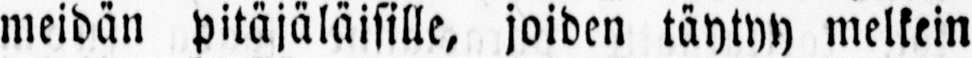meidän pitäjäläisille, joiden täytyy melkein
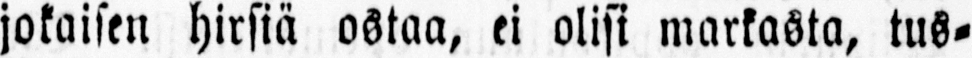jokaisen hirsiä ostaa, ei olisi markasta, tus-
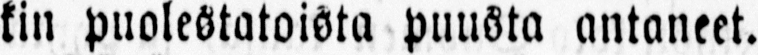kin puolestatoista puusta antaneet.
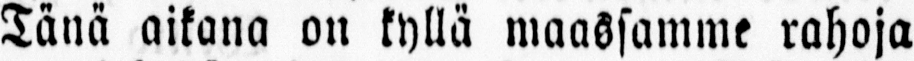Tänä aikana on kyllä maassamme rahoja
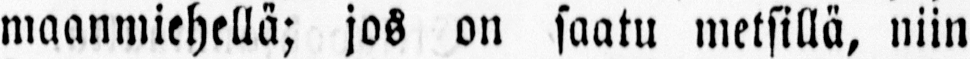maanmiehellä; jos on saatu metsillä, niin
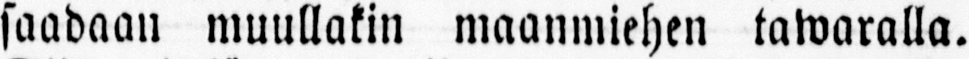saadaan muullakin maanmiehen tawaralla.
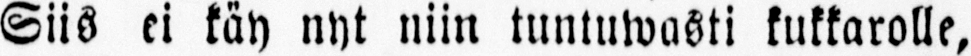Siis ei käy nyt niin tuntuwasti kukkarolle,
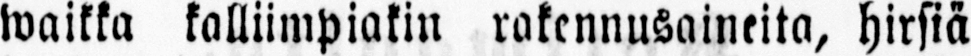waikka kalliimpiakin rakennusaineita, hirsiä
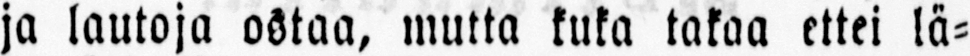ja lautoja ostaa, mutta kuka takaa ettei lä-
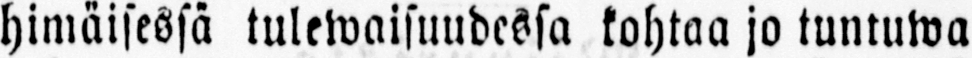himäisesä tulewaisuudessa kohtaa jo tuntuwa
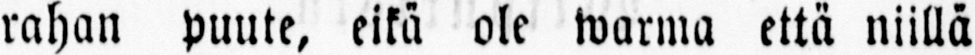rahan puute, eikä ole warma että niillä
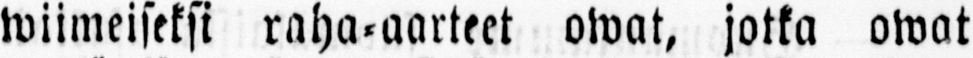wiimeiseksi raha-aarteet owat, jotka owat
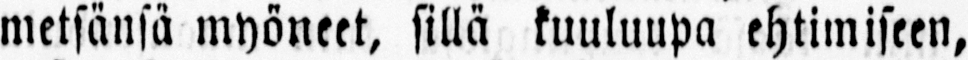metsänsä myöneet, sillä kuuluupa ehtimiseen,
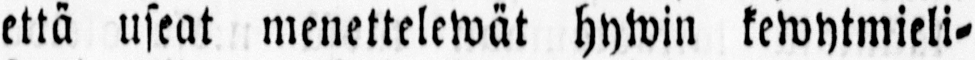että useat menettelewät hywin kewytmieli-
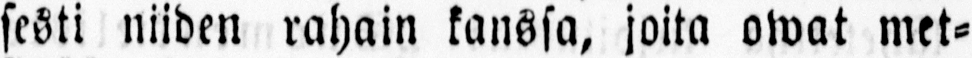sesti niiden rahain kanssa, joita owat met-
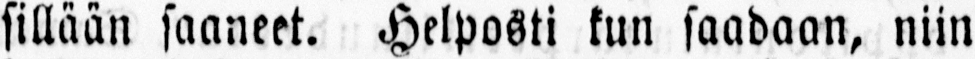sillään saaneet. Helposti kun saadaan, niin
